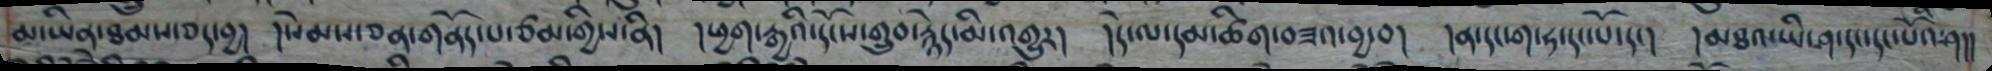མ་ཡིན་ཐམས་ཅད་བྱ། །སེམས་ཅན་གནོད་པ་ཙམ་གྱིས་ནི། །ཕྱག་རྒྱའི་དངོས་གྲུབ་རྙེད་མི་འགྱུར། །དེ་ལ་དམ་ཚིག་བཟའ་བྱ་བ། །ན་དང་ག་ཧ་དང་པོ་དང། །མཐའ་ཡི་ཤ་དང་དང་པོའི་ཤ།།
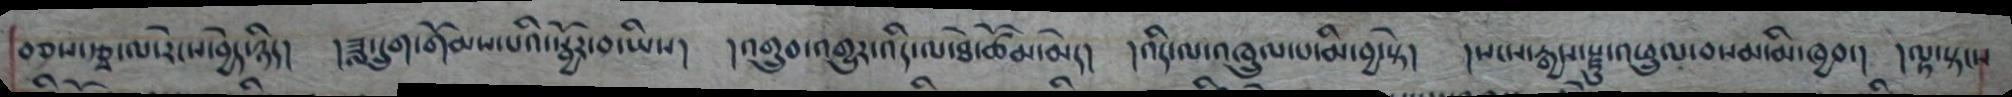བཅས་རྩྭ་ལ་རེངས་བྱེད་ཉིད། །ཟླ་དྲུག་གོམས་པའི་སྦྱོར་བ་ཡིས། །འགྲུབ་འགྱུར་འདི་ལ་ཐེ་ཚོམ་མེད། །འདི་ལ་འཁྲུལ་པ་མི་བྱ་སྟེ། །སངས་རྒྱས་སྫུ་འཕྲུལ་བསམ་མི་ཁྱབ་། །ལྟ་སྟངས
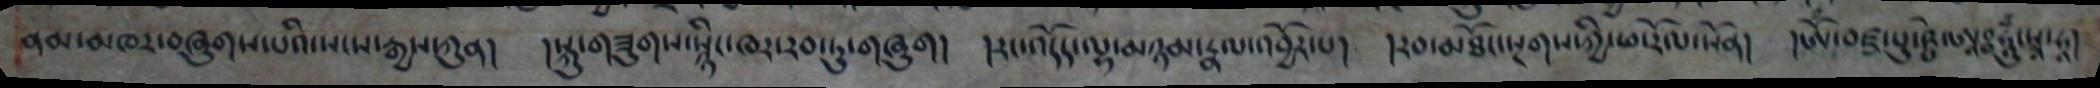ནམ་མཁར་བཞུགས་པའི་སངས་རྒྱས་ཀུན། །སྐུ་གཟུགས་སྙིང་ཁར་རབ་ཏུ་གཞུག། །རང་འདོད་ལྷ་མཉམ་རྣལ་འབྱོར་པ། །རབ་མཐོང་སྔགས་ཀྱི་ཕ་རོལ་སོན། །ཨོཾ་བཛྲ་པུ་ཥྤེ་ཨཱཿ ཧཱུཾ་སྭཱ་ཧཱ།
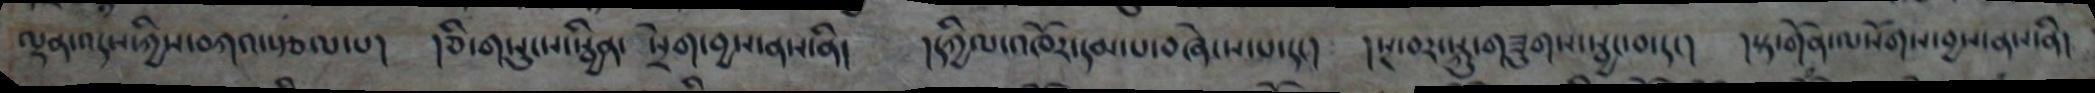ལྡན་འདས་ཀྱིས་བཀའ་སྩལ་པ། །ཅི་གཟུངས་སྦྱིན་ སྲེག་བྱས་ནས་ནི། །དཀྱིལ་འཁོར་དམ་པ་བཞེས་པ་དང། །སྔ་བར་སྐུ་གཟུགས་སྦྱང་བ་དང། །སྟ་གོན་ལསོགས་བྱས་ནས་ནི།
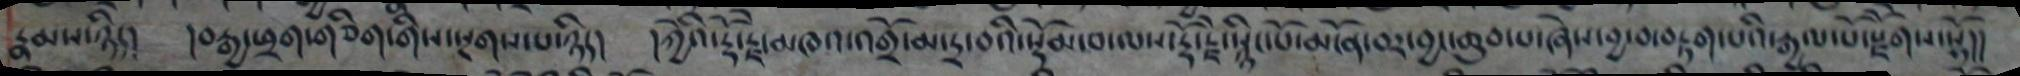རྣམས་ཉིད། །བརྒྱ་ཕྲག་གཅིག་གིས་སྔགས་པ་ཉིད། །ཀྱེའི་རྡོ་རྗེ་མཁའ་འགྲོ་མ་དྲ་བའི་སྡོམ་པ་ལས་རྡོ་རྗེ་སྙིང་པོ་མངོན་བར་བྱང་ཆུབ་པ་ཞེས་བྱ་བ་བརྟག་པའི་རྒྱལ་པོ་སྫོགས་སོ།།
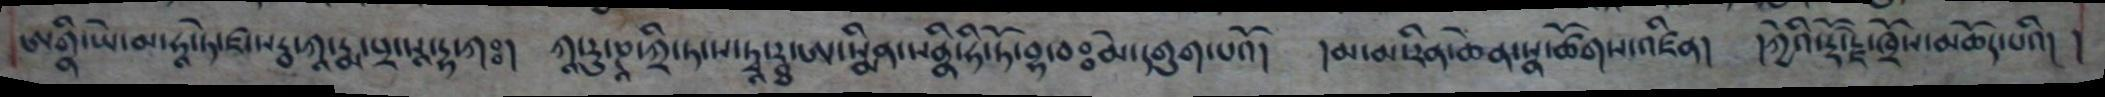ཨགྣི་ཡེ་མ་ཧཱ་ཏེ་ཛ་སརྦ་ཀཱ་རྨ་པྲ་སཱ་དྷ་ཀཿཿ  །  ཀཱ་རུ་ཎཱ་ཀྲི་ཏ་ས་ཏྭཱ་་རྠ་ཨ་སྨིན་སནྣི་ཧི་ཏོ་བྷ་བཿ མེ་དགུག་པའོ། །མ་མ་རིན་ཆེན་སྣ་ཚོགས་འཛིན། །ཀྱེའི་རྡོ་རྗེ་ཁྲོས་མཆོད་པའི། །
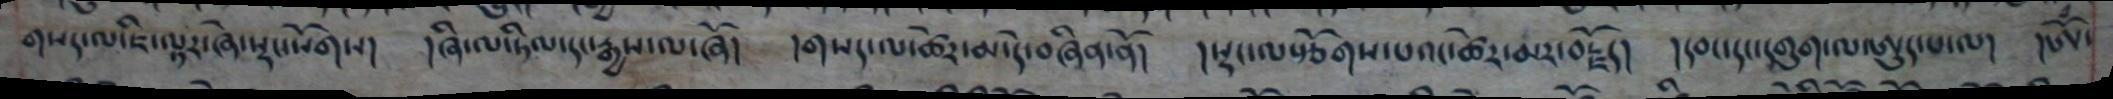གསད་ལ་ཇི་ལྟར་ཞེ་སྡང་སོགས། །ཞི་བ་ཏིལ་དང་རྒྱས་ལ་ཞོ། །གསད་ལ་ཚེར་མ་དེ་བཞིན་ནོ། །སྡང་ལ་རྩོགས་པའང་ཚེར་མར་བརྗོད། །དབང་དང་དགུག་ལ་ཨུད་པ་ལ། །ཨོཾ་
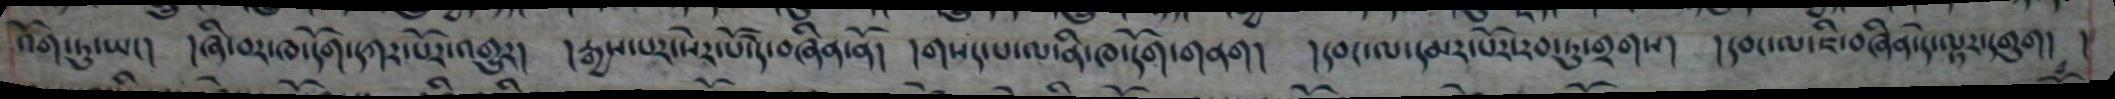འོག་ཏུ་ཡང། །ཞི་བར་ཁ་དོག་དཀར་པོར་འགྱུར། །རྒྱས་པར་སེར་པོ་དེ་བཞིན་ནོ། །གསད་པ་ལ་ནི་ཁ་དོག་གནག། །དབང་ལ་དམར་པོར་རབ་ཏུ་གྲགས། །དབང་ལ་ཇི་བཞིན་དེ་ལྟར་དགུག། །
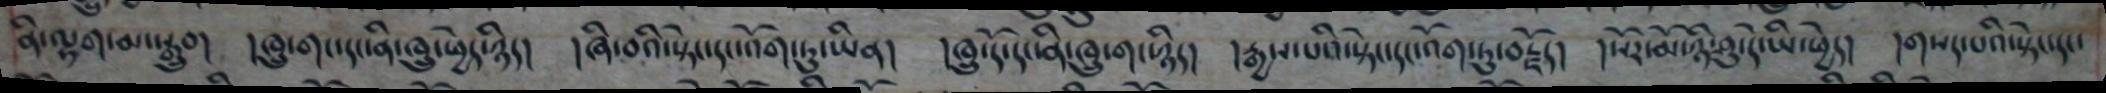ནི་ལྷག་མ་སྒྲུབ། །ཁྲུ་གང་དང་ནི་ཁྲུ་ཕྱེད་ཉིད། །ཞི་བའི་སྟེང་དང་འོག་ཏུ་ཡིན། །ཁྲུ་དོ་དང་ནི་ཁྲུ་གང་ཉིད། །རྒྱས་པའི་སྟེང་དང་འོག་ཏུ་བརྗོད། །སོར་མོ་ཉི་ཤུ་དེ་ཡི་ཕྱེད། །གསད་པའི་སྟེང་དང་
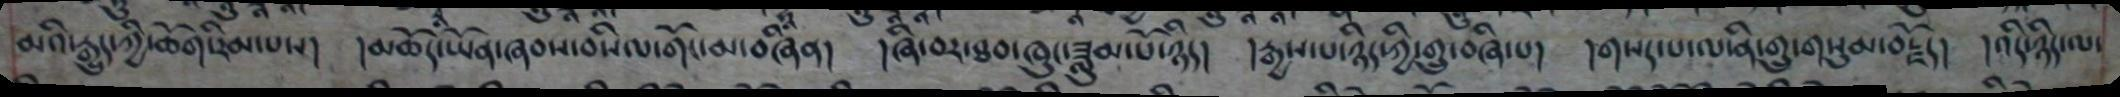མའི་རྒྱུད་ཀྱི་ཆོག་རིམ་པས། །མཆོད་ཡོན་ཞབས་བསིལ་གོང་མ་བཞིན། །ཞི་བར་ཐབ་ཁུང་ཟླུམ་པོ་ཉིད། །རྒྱས་པ་ཉིད་ཀྱི་གྲུ་བཞི་པ། །གསད་པ་ལ་ནི་གྲུ་གསུམ་བརྗོད། །འདི་ཉིད་ལ་
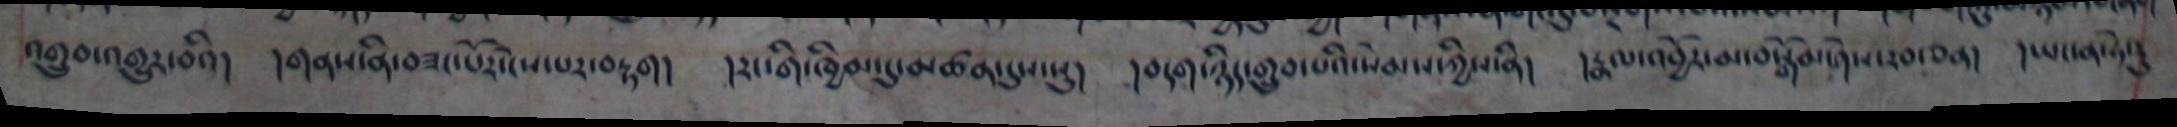འགྲུབ་འགྱུར་བའི། །གནས་ནི་བཟང་པོར་ངེས་པར་བརྟག། །རང་གི་ཁྱིམ་དུ་མཚན་དུས་སུ། །བདག་ཉིད་གྲུབ་པའི་སེམས་ཀྱིས་ནི། །རྣལ་འབྱོར་མ་བསྒོམ་ཤེས་རབ་ཅན། །ཡང་ན་ཧེ་རུ
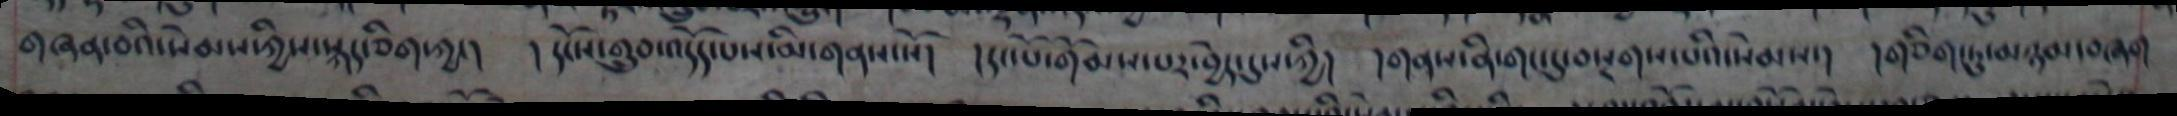གཞན་བའི་སེམས་ཀྱིས་སྐད་ཅིག་ཀྱང། །དངོས་གྲུབ་འདོད་པས་མི་གནས་སོ། །དང་པོ་གོམས་པར་བྱེད་དུས་ཀྱི། །གནས་ནི་གང་དུ་བསྔགས་པའི་སེམས། །གཅིག་ཏུ་མཉམ་བཞག
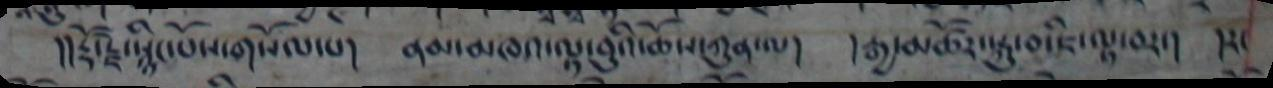།།རྡོ་རྗེ་སྙིང་པོས་གསོལ་པ། ནམ་མཁའ་ལྟ་བུའི་ཆོས་ཀུན་ལ། །རྒྱ་མཚོར་སྐུ་བ་ཇི་ལྲ་བར་། །རང
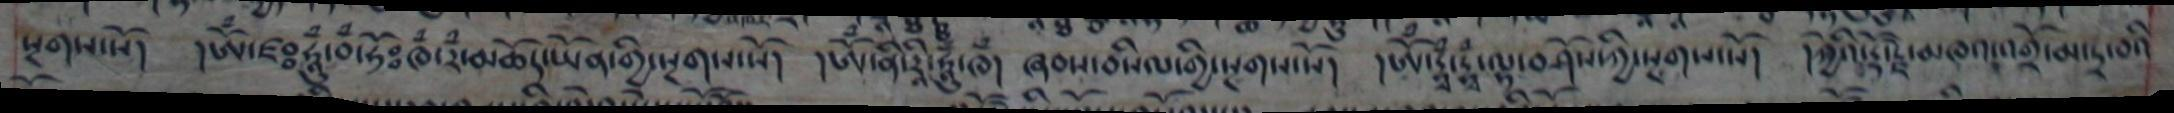སྔགས་སོ།    །ཨོཾ་ཛ་ཧཱུཾ་བཾཧོ་ཁཾ་རཾ་མཆོད་ཡོན་གྱི་སྔགས་སོ།  །ཨོཾ་ནི་རི་ཧཱུཾ་ཁཾ།   ཞབས་བསིལ་གྱི་སྔགས་སོ།  །ཨ་ཏྷཾ་ཏྷཾ་ལྷ་བཤོས་ཀྱི་སྔགས།   །བྱེའི་རྡོ་རྗེ་མཁའ་འགྲོ་མ་ཏྲ་བའི
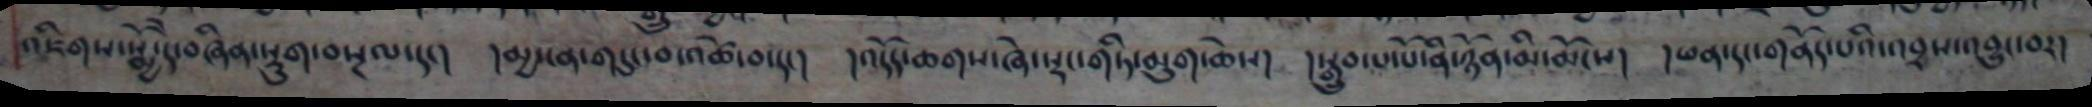འཇིགས་སྨྱོ་དེ་བཞིན་སྡུག་བསྔཀ་དང།    །མྱ་ངན་གདུང་བ་འཚེ་བ་དང།   ། འདོད་ཆགས་ཞེ་སྡང་གཏི་མུག་ཆེས།   །སྒྲུབ་པ་པོ་ནི་ཉོན་མི་མོངས།   །ཕན་དང་གནོད་པའི་འབྱས་འབྱུང་བར།
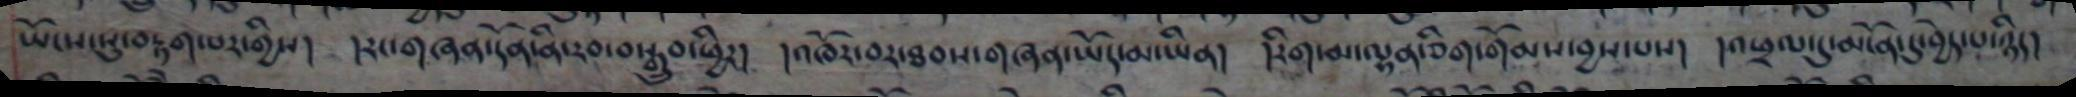ཡོངས་སུ་བརྟག་པར་གྱིས། །རང་གཞན་དོན་ནི་རབ་བསྒྲུབ་ཕྱིར། །འཁོར་བར་ཐབས་གཞན་ཡོད་མ་ཡིན། །རིག་མ་ལྷན་ཅིག་གོམས་བྱས་པས། །འཕྲལ་དུ་མངོན་དུ་བྱེད་པ་ཉིད།
